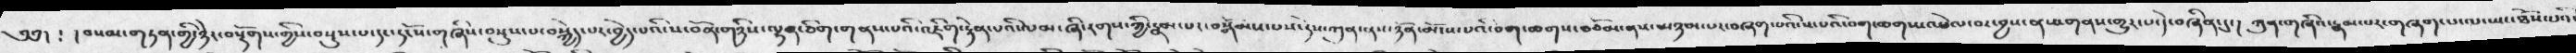༄༅། ༴ །བསམ་གཏན་གྱི་ཉེར་བསྡོགས་གྱིས་བསྡུས་པ་དང་དངོས་གཞཱིས་བསྡུས་པ་བསྐྱེད་པར་བྱེད་པའི་ས་བོན་གཉིས་ལྷན་ཅིག་གནས་པའི་འཇིག་རྟེན་པའི་ལམ་ཞི་རགས་ཀྱི་རྣམ་པར་བསྒོམས་པས་དེས་ཀུན་ནས་ཉོན་མོངས་པའི་བགས་ཆགས་བཅོམ་ནས་མཉམ་པར་བཞག་པའི་ས་པའི་བག་ཆགས་འཕེལ་བར་བྱས་ནས་གནས་གྱུར་པ་དེ་བཞིན་དུ་།  ཀུན་གཞིའ་རྣམ་པར་གཞག་པ་ལ་ཡང་ཐོས་པའི་
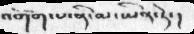འགོག་པ་ནི་མ་ཡིན་ཏེ་།
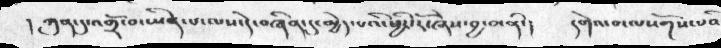། ཀུན་དུ་འགྲོ་བ་ཡིན་པ་ལས་དེ་བཞིན་དུ་མྱེད་པའི་ཕྱིར་རོ་ཞེས་བྱ་བ་ནི་།   དགེའ་བ་ལསོགས་པའི
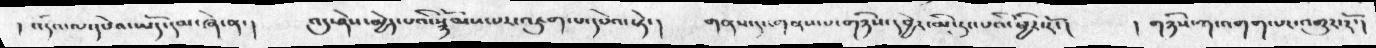། འདེའ་ལ་དཔེའ་ཡོད་དམ་ཞེ་ན་།   འདུ་ཤེས་མྱེད་པའི་སྙོམས་པར་འཇུག་པ་དཔེའ་སྟེ་།    གནས་དུ་ངགནས་པ་གཉིས་དབྱེར་མི་རུང་པའི་ཕྱིར་རོ་།   ། གཉིས་ཀ་འགག་པར་འགྱུར་རོ་།
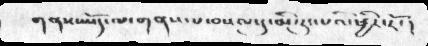གནས་ཡོད་ལ་གནས་པ་བསལ་དུ་མི་རུང་པའི་ཕྱིར་རོ་།
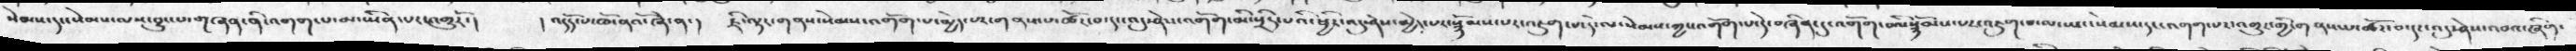སེམས་དང་སེམས་ལས་བྱུང་པ་གཞན་ནི་འགག་པ་མ་ཡིན་པར་འགྱུརོ་།   ། འདོད་པ་ཁོ་ནའོ་ཞེ་ན་།  ཇི་ལྟར་གནས་སེམས་འགོག་པ་མྱེད་པར་གནས་པ་ཚོར་བ་དང་འདུ་ཤེས་འགོག་མི་སྲིད་པའི་ཕྱིར་འདུ་ཤེས་མྱེད་པར་སྙོམས་པར་འཇུག་པ་དེ་ལ་སེམས་ཀྱང་འགོག་པ་དེ་བཞིན་དུ་འགོག་པའི་སྙོམས་པར་འཇུག་པ་ལ་ཡང་སེམས་དང་འགག་པར་འགྱུར་གྱི་གནས་པ་ཚོར་བ་དང་འདུ་ཤེས་འབའ་ཞིག་
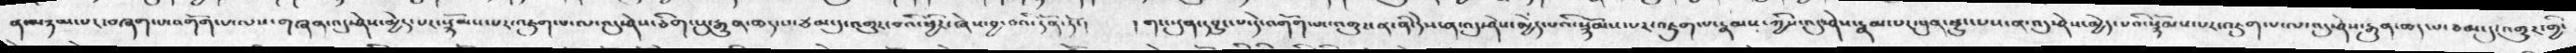ན་མཉམ་པར་བཞག་པ་འགོག་པ་ལས་གཞན་འདུ་ཤེས་མྱེད་པར་སྙོམས་པར་འཇུག་པ་ལ་འདུ་ཤེས་ཅིག་པུ་རྒྱུན་ཆད་པ་ཙམ་དུ་འགྱུར་པའི་ཕྱིར་ཞེས་བྱ་བའི་དོན་ཏོ་།   ། གང་སུན་དབྱུང་པ་དེ་འགོག་པང་གྱུར་ན་ནི་དེས་ན་འདུ་ཤེས་མྱེད་པའི་སྙོམས་པར་འཇུག་པ་རྣམས་ཀྱིས་འདུ་ཤེས་རྣམ་པར་སུན་བྱུང་པས་ན་འདུ་ཤེས་མྱེད་པའི་སྙོམས་པར་འཇུག་པ་ལ་འདུ་ཤེས་རྒུན་ཆད་པ་ཙམ་དུ་འགྱུར་གྱི་
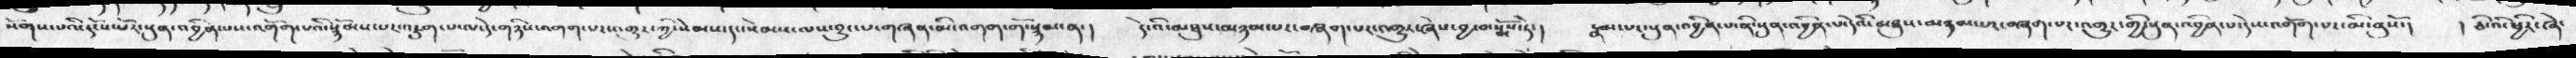སོགས་པའི་དངོས་པོར་སུན་འབྱིན་པས་འགོག་པའི་སྙོམས་པར་འཇུག་པ་ལ་དེ་གཉིས་འགག་པར་འགྱུར་ཀྱི་སེམས་དང་སེམས་ལས་བྱུང་པ་གཞན་མི་འགག་གོ་སྙམ་ན་།  དེ་འི་མཐུས་མཉམ་པར་བཞག་པར་འགྱུར་ཞེས་བྱ་བ་སྨོས་ཏེ་།   རྣམ་པར་སུན་འབྱིན་པ་ནི་སུན་འབྱིན་པ་དེའི་མཐུས་མཉམ་པར་བཞག་པར་འགྱུར་གྱི་སུན་འབྱིན་པ་དེས་འགོག་པར་མི་ནུསོ་།  ། ཅིའི་ཕྱིར་ཞེ་
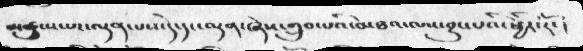མཚུངས་པར་ལྡན་པས་དེ་དང་ལྡན་ཞེས་གྲུབ་པའི་མཐའ་ལས་བྱུང་པའི་ཕྱིར་རོ་།
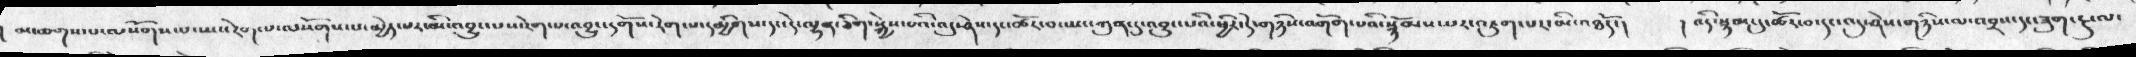མ་ཆགས་པ་ལསོགས་པ་ཡང་རེག་པ་ལསོགས་པ་མྱེད་པར་མི་འབྱུང་པས་རེག་པ་འབྱུང་དགོས་རེག་པ་དམྱིགས་དང་དེ་ལྷན་ཅིག་སྐྱེས་པའི་འདུ་ཤེས་དང་ཚོར་བ་ཡང་ཀུན་དུ་འབྱུང་པའི་ཕྱིར་དེ་གཉིས་འགོག་པའི་སྙོམས་པར་འཇུག་པར་མི་འཐདོ་།   །འདི་སྙམ་དུ་ཚོར་བ་དང་འདུ་ཤེས་གཉིས་ལ་འབྲས་དང་ཟུག་རྔུ་ལ་
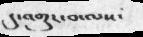དུ་འགྱུར་བ་ལས་
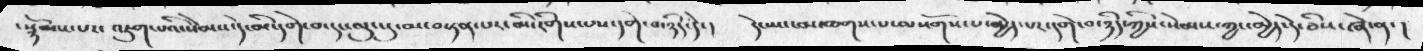སྙོམ་པར་ འཇུག་པའི་སེམས་དེ་མི་དགེ་བ་དང་ལུང་དུ་མ་བསྟན་པར་མི་རིགས་པས་དགེ་བ་ཉིད་དེ་།  དེ་ཡང་མ་ཆགས་པ་ལསོགས་པ་མྱེད་པར་དགེ་བ་ཉིད་ཀྱིས་སེམས་ཀྱང་མྱེད་དེ་ཅིས་ཞེ་ན་།
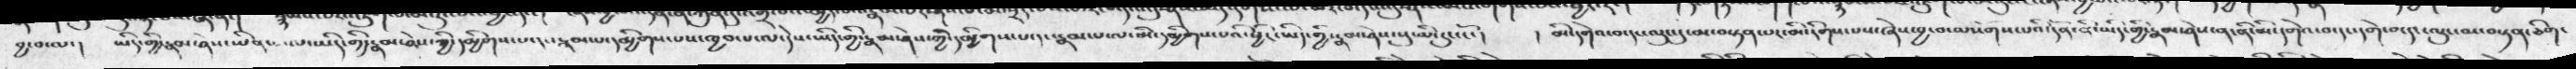བྱ་བ་ལ་།  ཡིད་གྱི་རྣམ་ཤེས་ཡིན་པ་ལ་ཡིད་ཀྱི་རྣམ་ཤེས་ཀྱི་དམྱིགས་པ་དང་རྣམ་པ་དམྱིགས་པས་ཁྱབ་པ་ལ་དེས་ཡིད་གྱི་རྣམ་ཤེས་ཀྱི་དམྱིགས་པ་དང་རྣམ་པ་ལ་མི་དམྱིགས་པའི་ཕྱིར་ཡིད་གྱི་རྣམ་ཤེས་སུ་མི་རུང་ངོ་།  ། མི་དགེའ་བ་དང་ལུང་དུ་མ་བསྟན་པར་མི་རིགས་པས་ཞེས་བྱ་བ་ལསོགས་པའི་དོན་ནི་མིད་གྱི་རྣམ་ཤེས་ན་ནི་མི་དགེའ་བ་དང་དགེ་བ་དང་ལུང་མ་བསྟན་ཅིག་
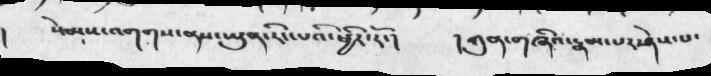།  སེམས་འགགས་ནས་ཡུན་རིང་པའི་ཕྱོར་རོ་།   ། ཀུན་གཞིའ་རྣམ་པར་ཤེས་པ་
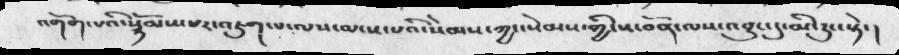འགོག་པའི་སྙོམས་པར་འཇུག་པ་ལས་མངས་པའི་སེམས་ཀྱང་སེམས་གྱི་ས་བོན་ལས་འབྱུང་དུ་མི་རུང་སྟེ་།
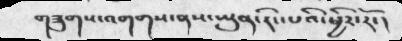གཟུགས་འགགས་ནས་ཡུན་རིང་པའི་ཕྱིར་རོ་།
